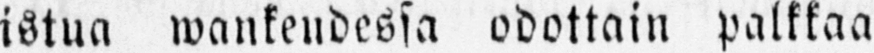istua wankeudessa odottain palkkaa
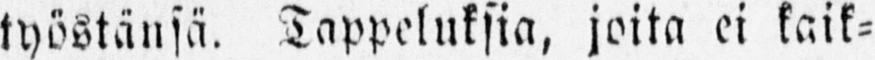työstänsä. Tappeluksia, joita ei kaik-
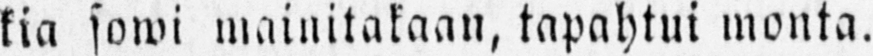kia sowi mainitakaan, tapahtui monta.
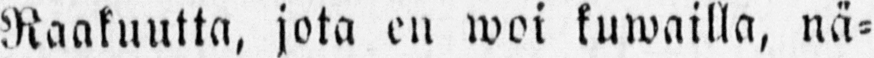Raakuutta, jota en woi kuwailla, nä-
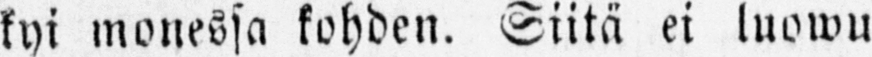kyi monessa kohden. Siitä ei luowu
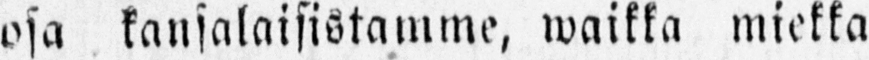osa kansalaisistamme, waikka miekka
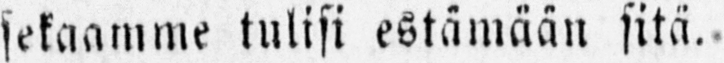sekaamme tulisi estämään sitä.
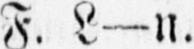F. L—n.
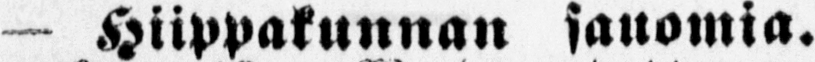— Hiippakunnan sauomia.
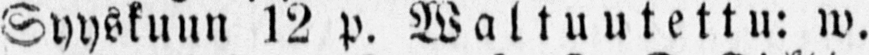Syyskuun 12 p. Waltuutettu: w.
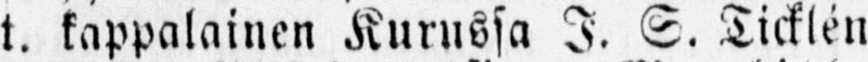t. kappalainen Kurussa J. S. Ticklén
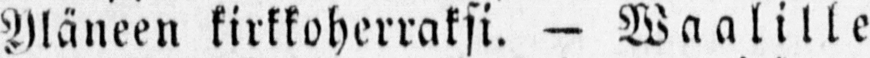Yläneen kirkkoherraksi. — Waalille
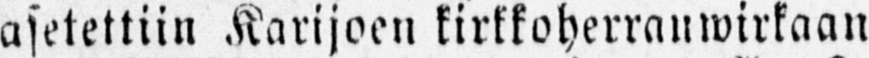asetettiin Karijoen kirkkoherranwirkaan
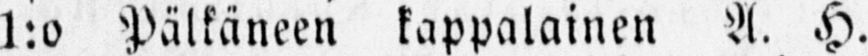1:o Pälkäneen kappalainen A. H.
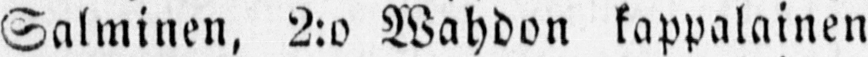Salminen, 2:o Wahdon kappalainen
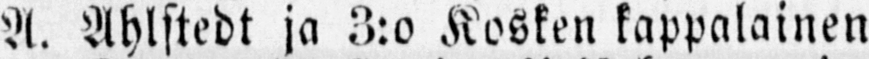A. Ahlstedt ja З:o Kosken kappalainen
